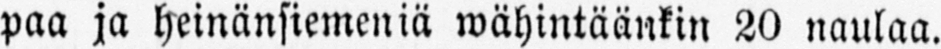paa ja heinänsiemeniä wähintäänkin 20 naulaa.
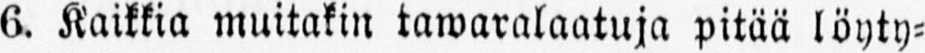6. Kaikkia muitakin tawaralaatuja pitää löyty-
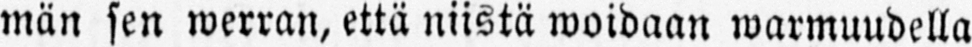män sen werran, että niistä woidaan warmuudella
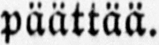päättää.
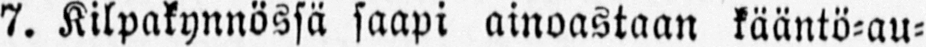7. Kilpakynnössä saapi ainoastaan kääntö-au-
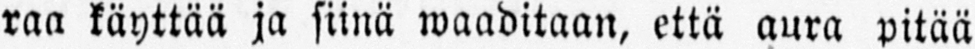raa käyttää ja siinä waaditaan, että aura pitää
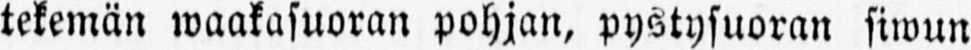tekemän waakasuoran pohjan, pystysuoran siwun
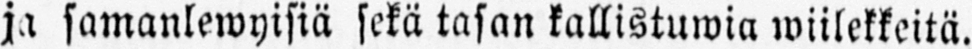ja samanlewyisiä sekä tasan kallistuwia wiilekkeitä.
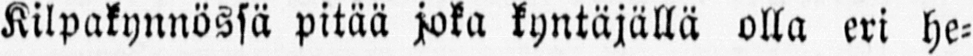Kilpakynnössä pitää joka kyntäjällä olla eri he-
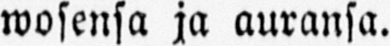wosensa ja auransa.
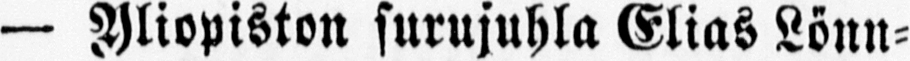— Yliopiston surujuhla Elias Lönn-
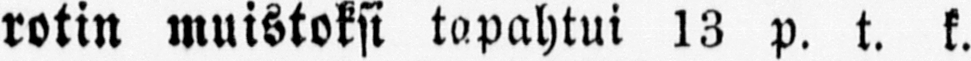rotin muistoksi tapahtui 13 p. t. k.
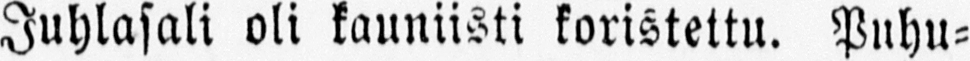Juhlasali oli kauniisti koristettu. Puhu-
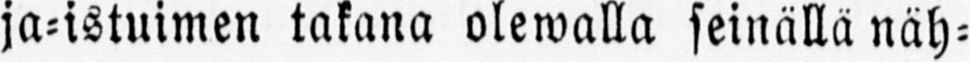ja-istuimen takana olewalla seinällä näh-
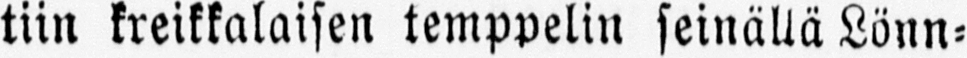tiin kreikkalaisen temppelin seinällä Lönn-
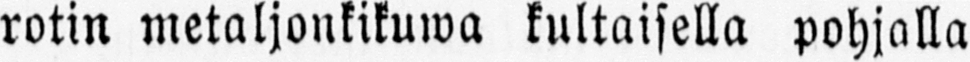rotin metaljonkikuwa kultaisella pohjalla
